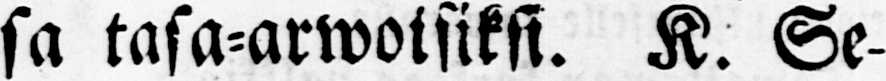sa tasa-arwoisiksi. K. Se-
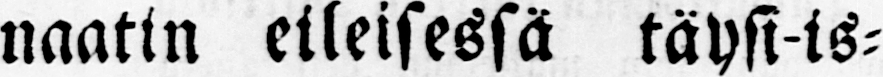naatin eileisessä täysi-is-
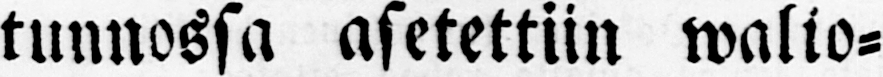tunnossa asetettiin watio-
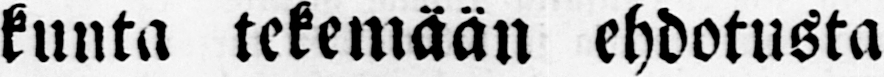kunta tekemään ehdotusta
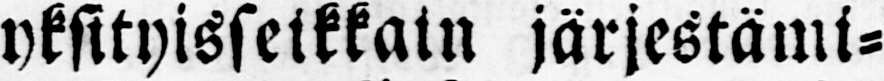yksityisseikkain järjestämi-
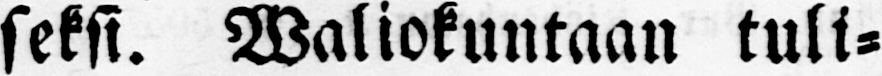seksi. Waliokuntaan tuli-
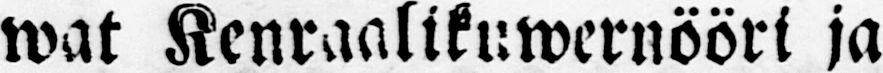wat Kenraalikuwernööri ja
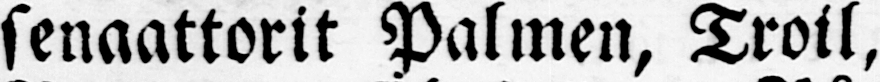senaattorit Palmen, Troil,
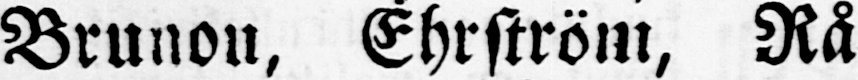Brunon, Ehrström, Rå-
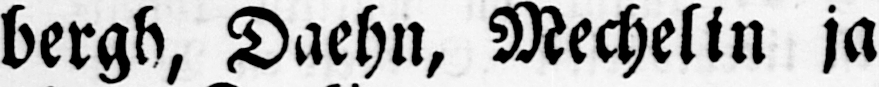bergh, Daehn, Mechelin ja
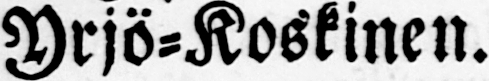Yrjö-Koskinen.
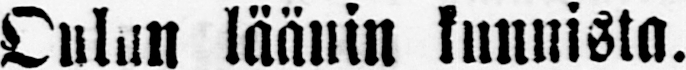Oulun läänin kunnista.
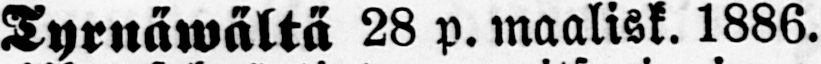Tyrnärwältä 28 p. maalisk. 1886.
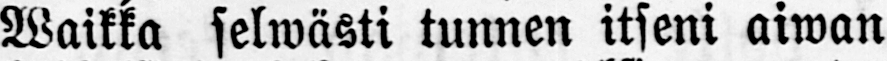Waikka selwästi tunnen itseni aiwan
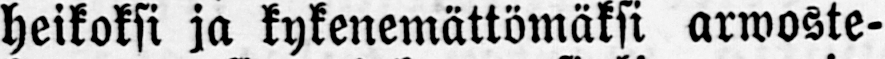heikoksi ja kykenemättömäksi arwoste-
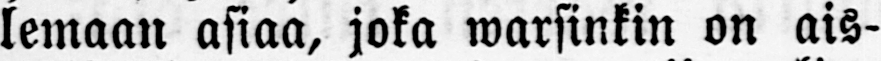lemaan asiaa, joka warsinkin on ais-
